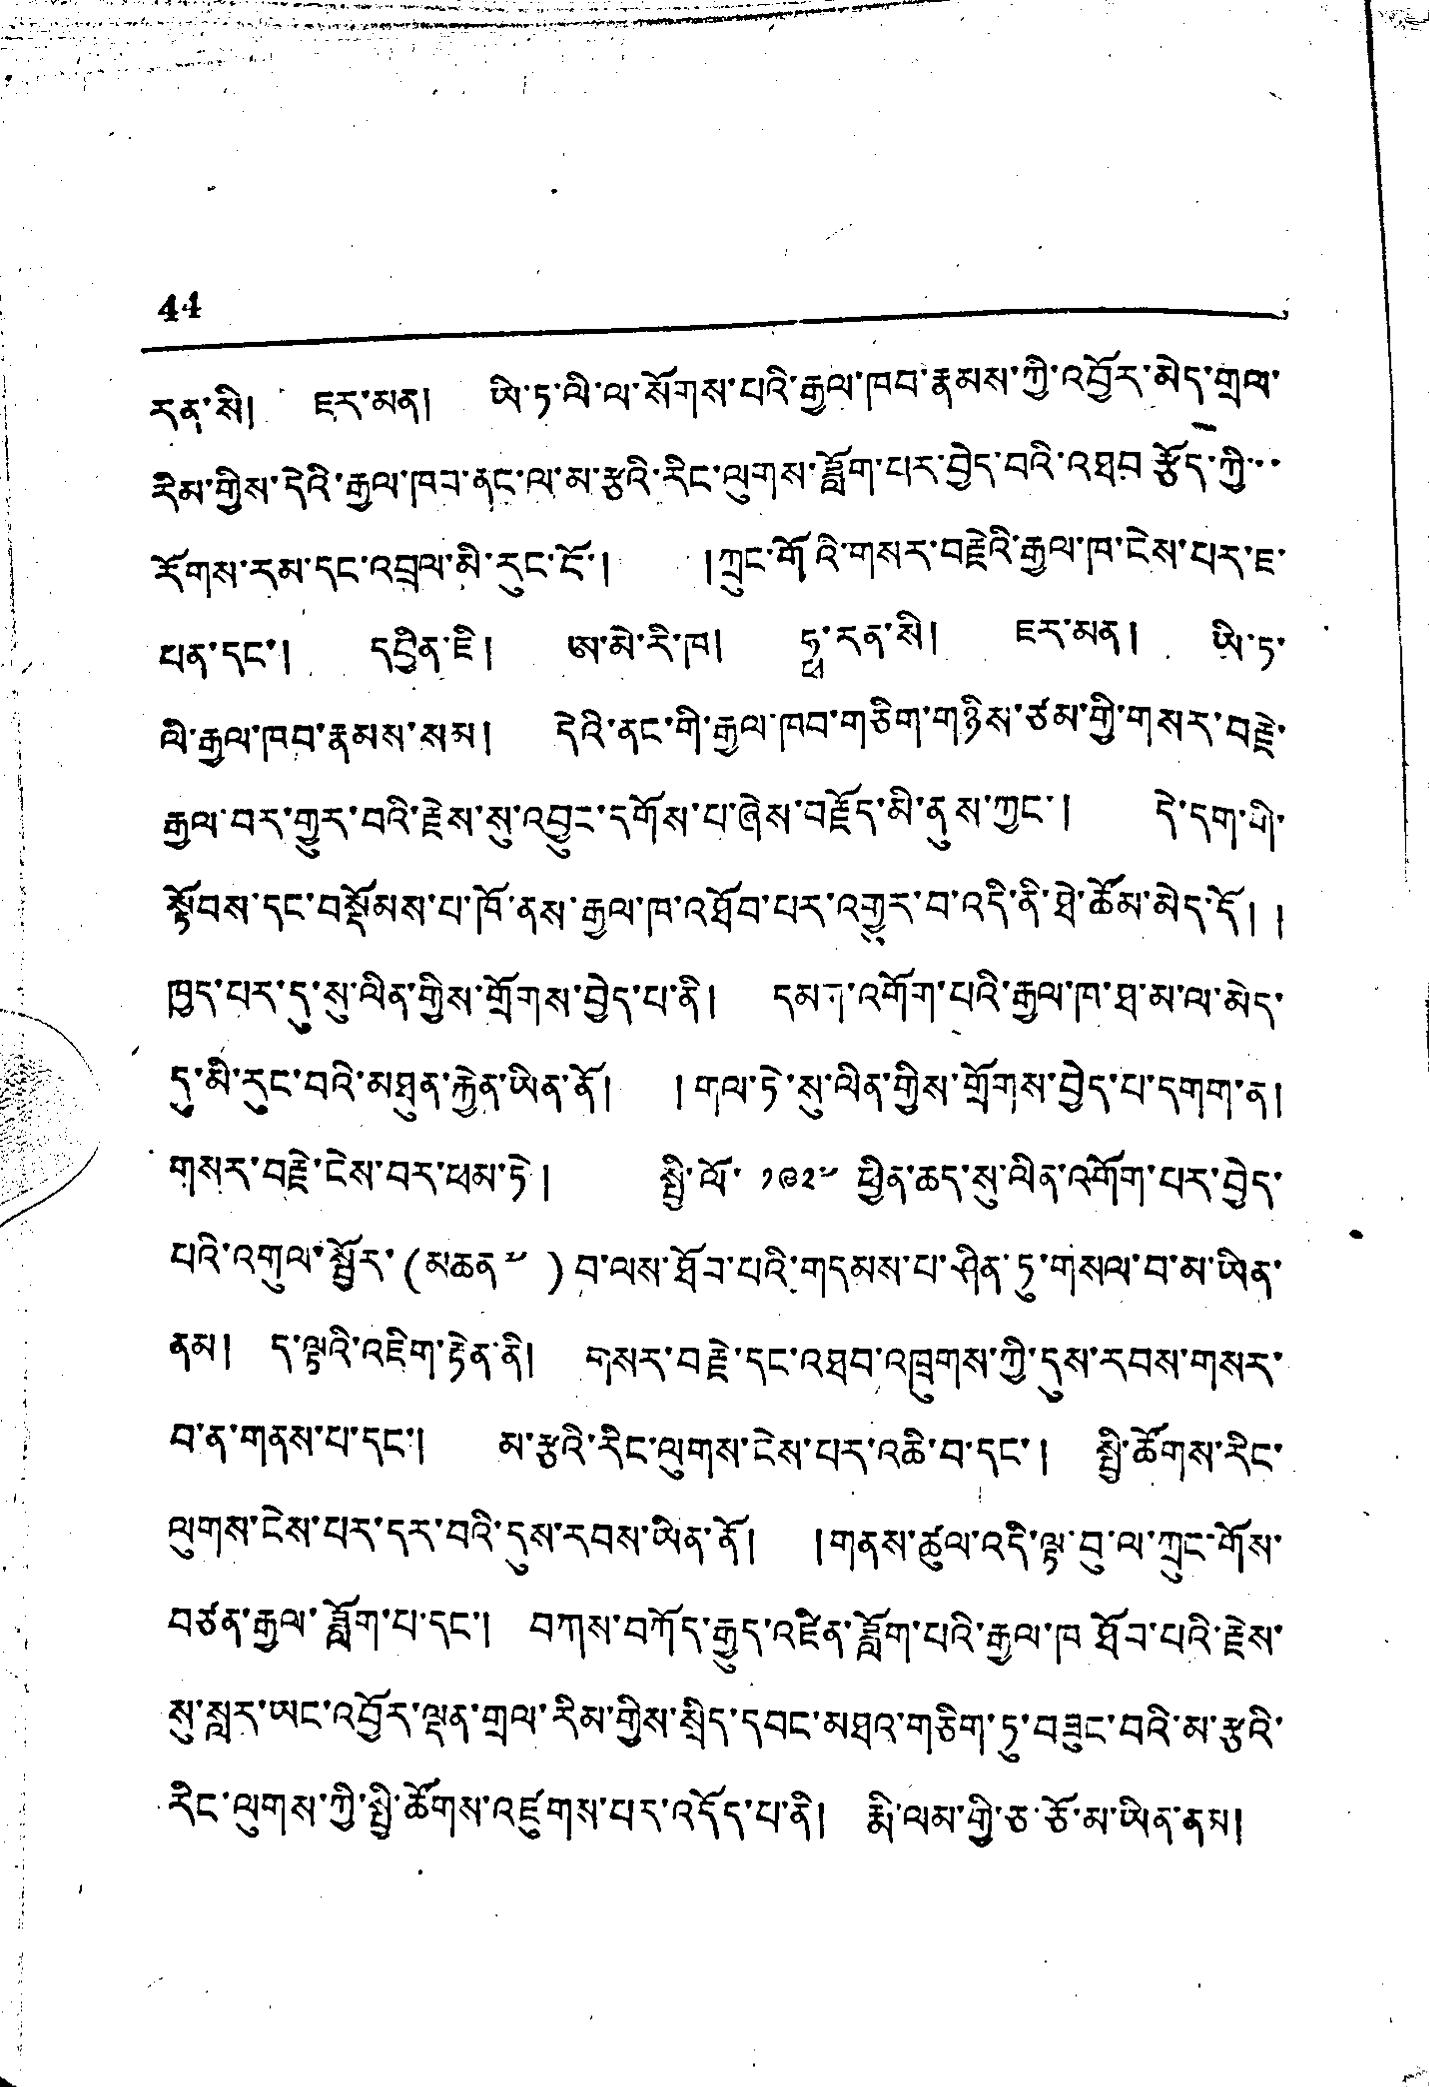44
རན་སི། ཇར་མན། ཡི་ཏ་ལི་ལ་སོགས་པའི་རྒྱལ་ཁབ་རྣམས་ཀྱི་འབྱོར་མེད་གྲལ་
རིམ་གྱིས་དེའི་རྒྱལ་ཁབ་ནང་ལ་མ་རྩའི་རིང་ལུགས་ཟློག་པར་བྱེད་བའི་འཐབ་རྩོད་ཀྱི་་
རོགས་རམ་དང་འབྲལ་མི་རུང་ངོ་། །ཀྲུང་གོའི་གསར་བརྗེའི་རྒྱལ་ཁ་ངེས་པར་ཇ་
པན་དང་། དབྱིན་ཇི། ཨ་མེ་རི་ཁ། ཧྥ་རན་སི། ཇར་མན། ཡི་ཏ་
ལི་རྒྱལ་ཁབ་རྣམས་སམ། དེའི་ནང་གི་རྒྱལ་ཁབ་གཅིག་གཉིས་ཙམ་གྱི་གསར་བརྗེ་
རྒྱལ་བར་གྱུར་བའི་རྗེས་སུ་འབྱུང་དགོས་པ་ཞེས་བརྗོད་མི་ནུས་ཀྱང་། དེ་དག་གི་
སྟོབས་དང་བསྡོམས་པ་ཁོ་ནས་རྒྱལ་ཁ་འཐོབ་པར་འགྱུར་བ་འདི་ནི་ཐེ་ཚོམ་མེད་དོ། །
ཁྱད་པར་དུ་སུ་ལིན་གྱིས་གྲོགས་བྱེད་པ་ནི། དམག་འགོག་པའི་རྒྱལ་ཁ་ཐ་མ་ལ་མེད་
དུ་མི་རུང་བའི་མཐུན་རྐྱེན་ཡིན་ནོ། ། གལ་ཏེ་སུ་ལིན་གྱིས་གྲོགས་བྱེད་པ་དགག་ན།
གསར་བརྗེ་ངེས་བར་ཕམ་ཏེ ། སྤྱི་ལོ་ ༡༩༢༧ ཕྱིན་ཆད་སུ་ལིན་འགོག་པར་བྱེད་
པའི་འགུལ་སྦྱོར་(མཆན ༧ )བ་ལས་ཐོབ་པའི་གདམས་པ་ཤིན་ཏུ་གསལ་བ་མ་ཡིན་
ནམ། ད་ལྟའི་འཇིག་རྟེན་ནི། གསར་བརྗེ་དང་འཐབ་འཁྲུགས་ཀྱི་དུས་རབས་གསར་
པ་ན་གནས་པ་དང་། མ་རྩའི་རིང་ལུགས་ངེས་པར་འཆི་བ་དང་། སྤྱི་ཚོགས་རིང་
ལུགས་ངེས་པར་དར་བའི་དུས་རབས་ཡིན་ནོ། །གནས་ཚུལ་འདི་ལྟ་བུ་ལ་ཀྲུང་གོས་
བཙན་རྒྱལ་ཟློག་པ་དང་། བཀས་བཀོད་རྒྱུད་འཛིན་ཟློག་པའི་རྒྱལ་ཁ་ཐོབ་པའི་རྗེས་
སུ་སླར་ཡང་འབྱོར་ལྡན་གྲལ་རིམ་གྱི་སྲིད་དབང་མཐའ་གཅིག་ཏུ་བཟུང་བའི་མ་རྩའི་
རིང་ལུགས་ཀྱི་སྤྱི་ཚོགས་འཛུགས་པར་འདོད་པ་ནི། རྨི་ལམ་གྱི་ཅ་ཅོ་མ་ཡིན་ནམ།
